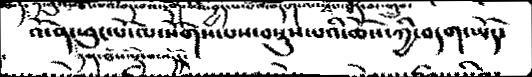འོ་ན་ཕུང་པོ་ལ་སོགས་པས་བསྡུས་པའི་ཆོས་ཀྱི་བདག་ཡོད་
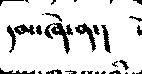དམ་ཞེ་ན་།
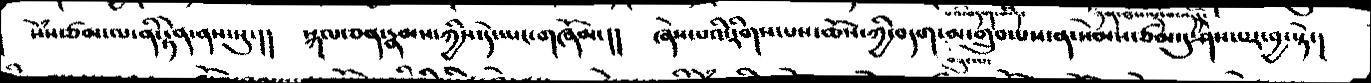སེཾས་ཙམ་ལ་ནི་རྟེན་ནས་སུ་།།  སྐལ་ཅན་རྣམས་ཀྱིས་ད་ཡང་གཞོམ་།།   ཞེས་པའི་རིགས་པས་ཆོས་ཀྱི་བདག་མ་གྲུབ་པས་ན་སེམས་ཙམ་དུ་ཤེས་པར་བྱ་སྟེ་།
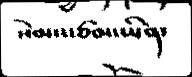སེམས་ཙམ་ཡིན་
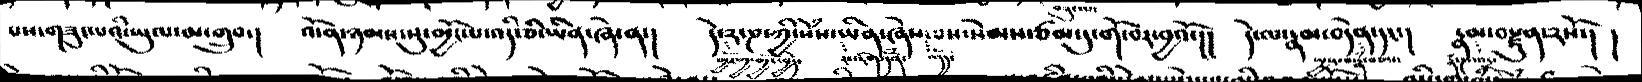པས་གཟུང་པའི་ཡུལ་མ་གྲུབ་།  འོ་ན་ཉམས་སུ་མྱོང་པ་འདི་ཅི་ཡིན་ཞེ་ན་།  དེ་༢་ཎ་ཀྱི་སེཾས་ཡིན་ཞེས་པས་སེམས་ཙམ་དུ་གོ་བར་བྱའོ་།། དེ་ལ་རྣམ་བདེན་དང་།   རྣམ་བརྫུན་༢སོ་།  །
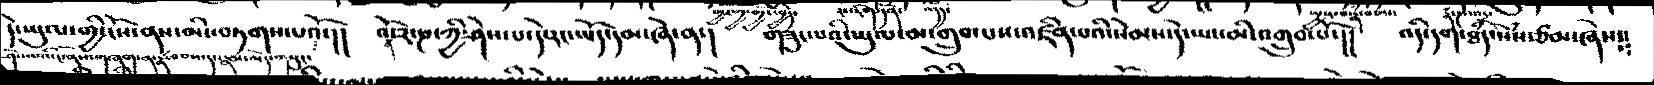དེ་ཡུལ་གྱི་ངོས་ནས་མིང་བཏགས་པའོ་།།  འོ་ན་༢་ཎ་ཀྱི་ཤེས་པ་དེ་རང་ཡོད་དམ་ཞེ་ན་།   གཟུང་པའི་ཡུལ་མ་གྲུབ་པས་འཛིན་པའི་སེམས་དེ་ཡང་མི་འགྲུབ་པོ་།།  འདི་དག་ཐཾད་སེཾས་ཙམ་ཞེས༴༴
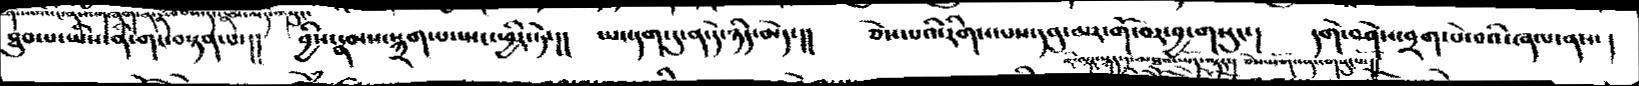ཐུབ་པ་ཡིས་ནི་གང་བསྟན་པ་།། བྱིས་རྣམས་སྐྲག་པ་སྤང་ཕྱིར་ཏེ་།།  ཡང་དག་དུ་ན་དེ་ཉིད་མེད་།།  ཅེས་པའི་རིགས་པས་དབུ་མར་གོ་བར་བྱ་གསུང་།  དགེ་བཤེས་བྲག་པེ་བའི་ཞལ་ནས་།
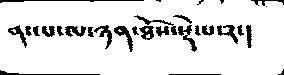ནང་པ་ལ་ཉན་ཐོས་སྡེ་པ་༢་།
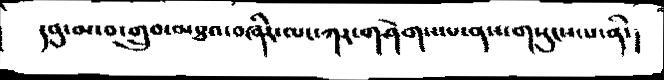དབུ་མ་བ་གྲུབ་མཐའ་བཞིར་ལང་ཀར་གཤེགས་པ་ནས་གསུངས་པ་ནི་།
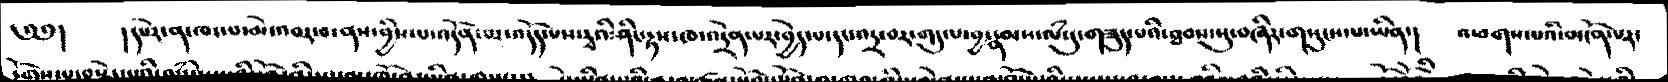༄༅།   །དཔེར་ན་ཁང་པ་མེ་འབར་བ་ནས་བྱིས་པ་འདོན་པར་འདོད་པས་རྭའི་ཤིང་རྟས་ཁ་འདྲེན་པར་བྱེད་པ་དང་འདྲ་བར་གདུལ་བྱ་རྣམས་ལཾ་དུ་གཟུད་པའི་ཐབས་སུ་བཞིར་གསུངས་པ་ཡིན་།   འཕགས་པའི་མངོན་པར་
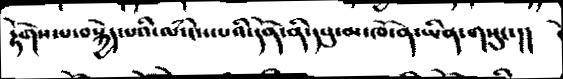རྟོགས་པ་བསྐྱེད་པའི་ལཾ་ངེས་པའི་དོན་ནི་དབུ་མ་ཁོ་ན་ཡིན་གསུང་།།
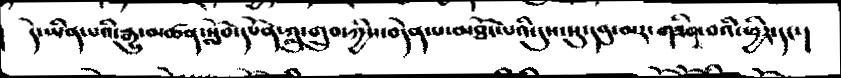དེ་ཡིན་པའི་རྒྱུ་མཚན་སློབ་དཔོན་ཀླུ་གྲུབ་ཀྱིས་བདེན་པ་མཐོང་པའི་དུས་སུ་དབུ་མར་གཟིགས་བའི་ཕྱིར་དང་།
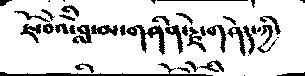ཇོ་བོའི་བླ་མ་གཤིན་རྗེ་གཤེད་ཀྱི་
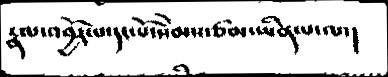རྣལ་འབྱོར་པ་དང་པོ་སེམས་ཙམ་ཡིན་པ་ལ་།
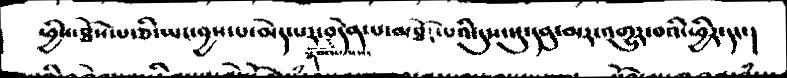ཕྱིས་ཐོས་པ་ཅི་ཡང་བྱས་པ་མེདཔ་བདེན་པ་མཐོང་པའི་དུས་སུ་དབུ་མར་འགྱུར་བའི་ཕྱིར་དང་།
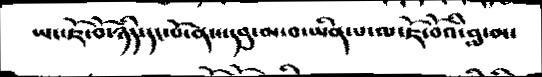ཡང་ཇོ་བོའི་ཉིད་དང་པོ་ནས་དབུ་མ་བ་ཡིན་པ་ལ་ཇོ་བོའི་བླ་མ་
